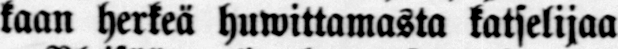kaan herkeä huwittamasta katselijaa.
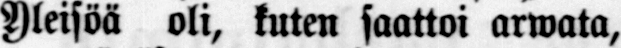Yleisöä oli, kuten saattoi arwata,
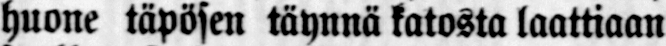huone täpösen täynnä katosta laatijaan
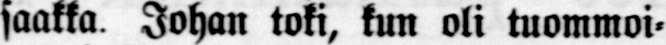saakka Johan toki, kun oli tuommoi-
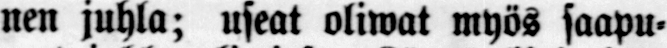nen juhla; useat oliwat myös saapu-
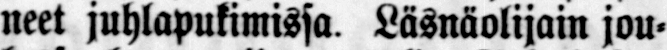neet juhlapukimissa. Läsnäolijain jou-
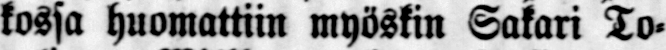kossa huomattiin myöskin Sakari To-
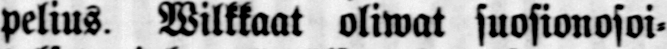pelius. Wilkkaat oliwat suosionosoi-
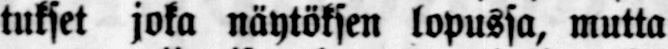tukset joka näytöksen lopussa, mutta
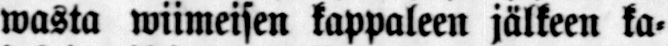wasta wiimeisen kappaleen jälkeen ka-
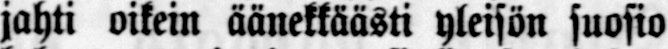jahti oikein äänekkäästi yleisön suosio
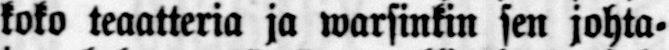koko teaatteria ja warsinkin sen johta-
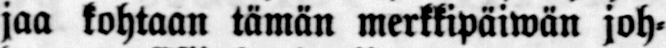jaa kohtaan tämän merkkipäiwän joh-
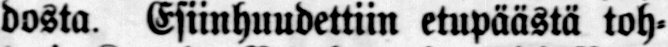dosta. Esiinhuudettiin etupäästä toh-
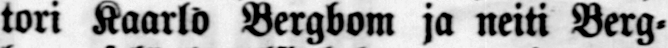tori Kaarlo Bergbom ja neiti Berg-
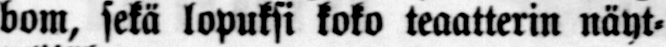bom, sekä lopuksi koko teaatterin näyt-
